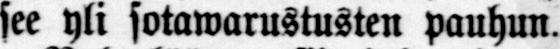see yli sotawarustusten pauhun.
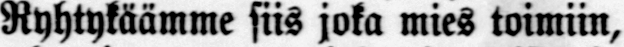Ryhtykäämme siis joka mies toimiin,
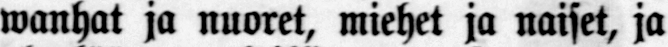wanhat ja nuoret, miehet ja naiset, ja
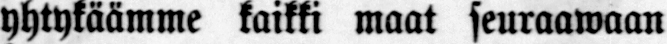yhtykäämme kaikki maat seuraawaan
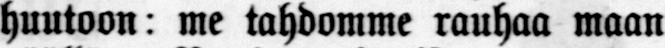huutoon: me tahdomme rauhaa maan
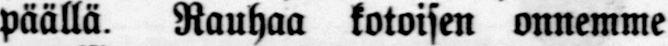päällä. Rauhaa kotoisen onnemme
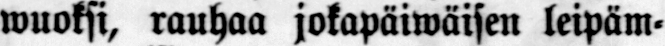wuoksi, rauhaa jokapäiwäisen leipäm-
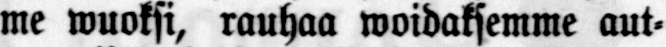me wuoksi, rauhaa woidaksemme aut-
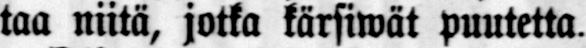taa niitä, jotka kärsiwät puutetta.
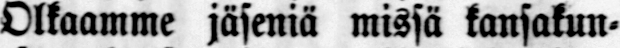Olkaamme jäseniä missä kansakun-
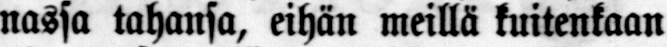nassa tahansa, eihän meillä kuitenkaan
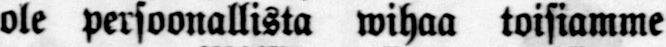ole persoonallista wihaa toisiamme
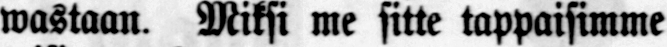wastaan. Miksi me sitte tappaisimme
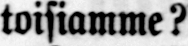toisiamme?
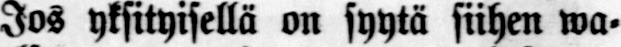Jos yksityisellä on syytä siihen wa-
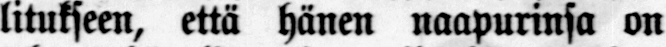litukseen, että hänen naapurinsa on
